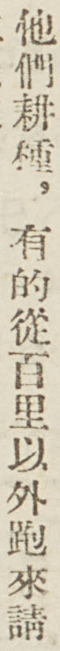他們耕種，有的從百里以外跑來請
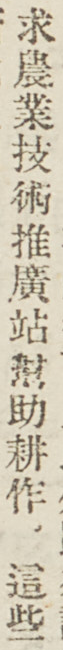求農業技術推廣站幫助耕作，這些
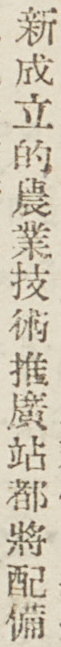新成立的農業技術推廣站都將配備
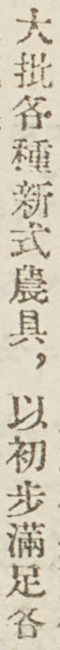大批各種新式農具，以初步滿足各
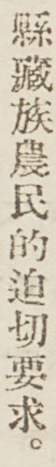縣藏族農民的迫切要求。
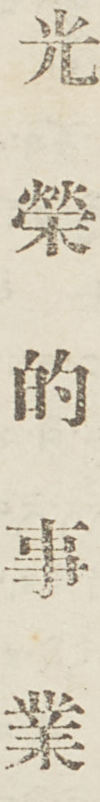光 榮 的 事 業
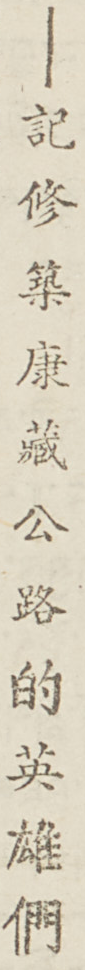——記修築康藏公路的英雄們
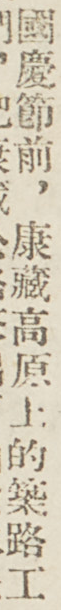國慶節前，康藏高原上的築路工
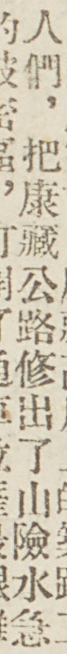人們，把康藏公路修出了山險水急
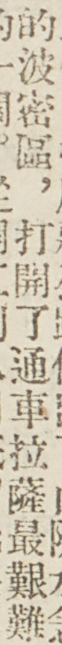的波密區，打開了通車拉薩最艱難
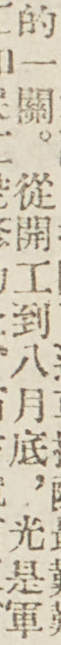的一關。從開工到八月底，光是軍
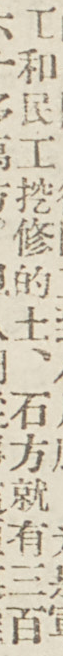工和民工挖修的土、石方就有三百
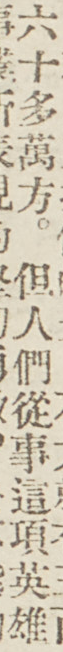六十多萬方。但人們從事這項英雄
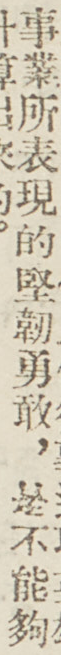事業所表現的堅韌勇敢，是不能夠
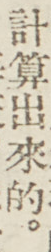計算出來的。
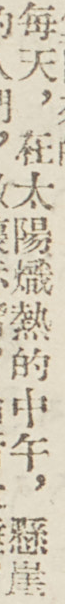每天，在太陽熾熱的中午，懸崖
